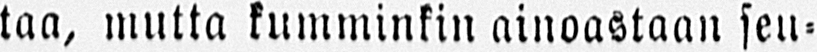taa, mutta kumminkin ainoastaan seu-
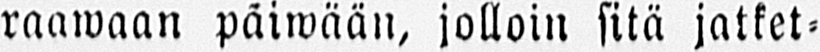raawaan päiwään, jolloin sitä jatket-
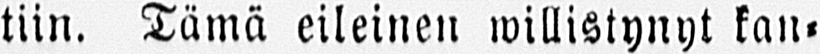tiin. Tämä eileinen willistynyt kan-
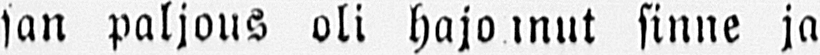san paljous oli hajonnut sinne ja
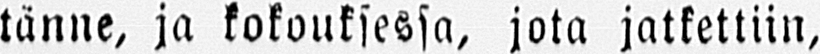tänne, ja kokouksessa, jota jatkettiin,
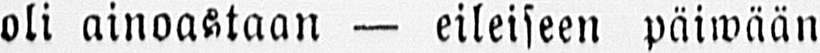oli ainoastaan — eileiseen päiwään
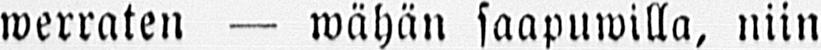werraten — wähän saapuwilla, niin
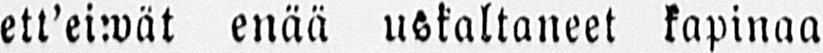ett’eiwät enää uskaltaneet kapinaa
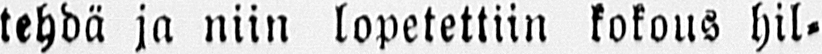tehdä ja niin lopetettiin kokous hil-
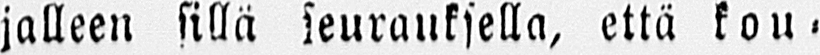jalleen sillä seurauksella, että kou-
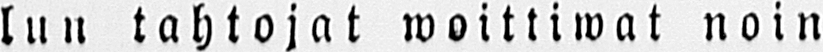lun tahtojat woittiwat noin
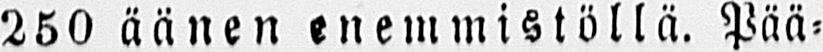250 äänen enemmistöllä. Pää-
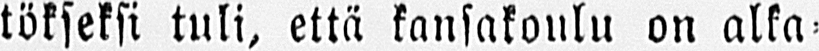tökseksi tuli, että kansakoulu on alka-
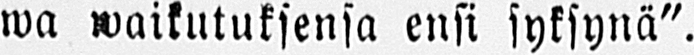wa waikutuksensa ensi syksynä".
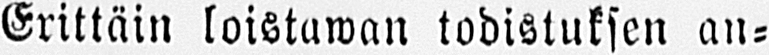Erittäin loistawan todistuksen an-
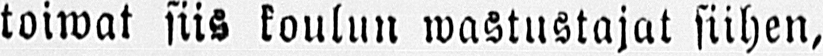toiwat siis koulun wastustajat siihen,
